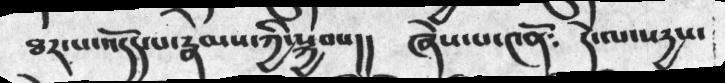ཐར་པ་འདོད་པ་རྣམས་ཀྱི་སྐྱབས།།   ཞེས་པ་༤ནོ༴  དེ་ལ་སདྱས་
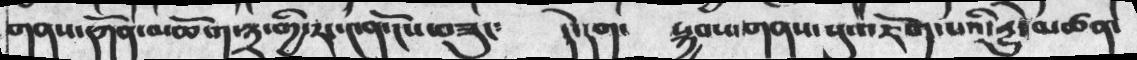གནས་དཀོན་མཆོག་༣་གྱི་རང་༤ན་ངོས་བཟུང༴  དེ་དག་   སྐྱབས་གནས་སུ་འཇོག་པའི་རྱུ་མཚན་
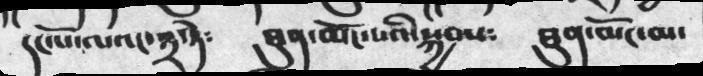དང་པོ་ལའང་༣་ཏེ༴  ཐུན་མོང་པའི་སྐྱབས༴  ཐུན་མོང་མ་
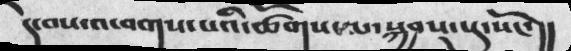དེ་བས་འཕགས་པའི་ཚོགས་ལ་སྐྱབས་སུ་སོང་།།
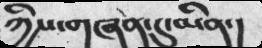ཀྱིས་གཞན་དུ་མིན་།
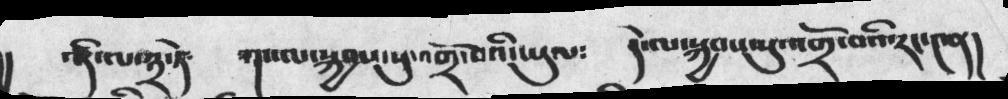།    འདི་ལ་༣་ཏེ༴  གང་ལ་སྐྱབས་སུ་འགྲོ་བའི་ཡུལ༴  དེ་ལ་སྐྱབས་སུ་འགྲོ་བའི་རང་༤ན།
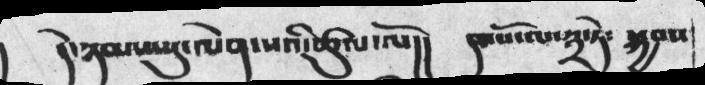།   དེ་ཉམས་སུ་ལེན་པའི་ཚུལ་ལོ།།  དང་པོ་ལ་༣་ཏེ༴  སྐྱབས
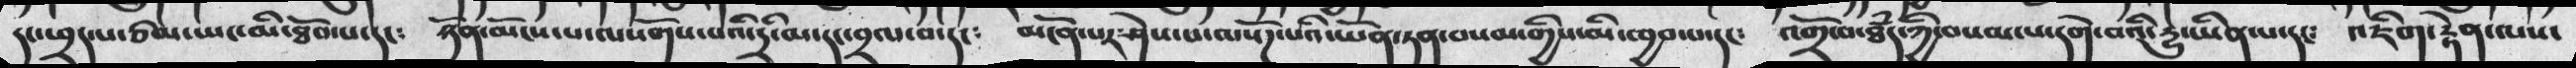དང་ཕྲད་པ་ཙམ་ཡང་མི་ཐོབ་པ་དང་  ཉོན་མོངས་པ་ལ་སོགས་པའི་དྲི་མ་དང་བྲལ་བ་དང༴  མངོན་པར་ཤེས་པ་ལ་སོཌ་པའི་ཡོན་ཏན་བསམ་གྱིས་མི་ཁྱབ་པ་དང༴  འགྲོ་བ་ཐཾད་ཀྱི་བསམ་པ་དགེ་བའི་རྱུ་ཡིན་པ་དང༴  འཇིག་རྟེན་ལས་
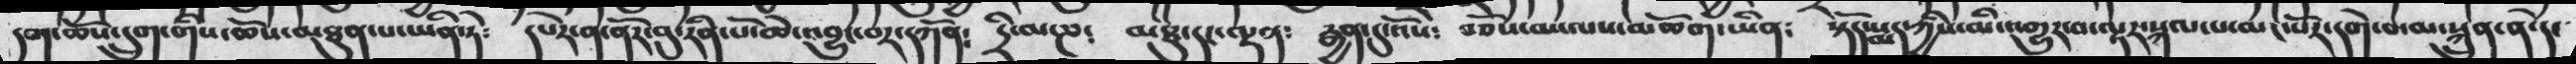དག་ཆོས་དྲུག་གིས་ཆོས་མཐུན་པ་ཡིན་ཏེ༴  དཔེར་ན་ནོར་བུ་རིན་པོ་ཆེ་འབྱུང་བར་དཀོན༴  དྲི་མ་ཎ༴  མཐུ་དང་ལྡན༴  རྒྱན་དུ་འོས༴  བཅོས་མ་ལས་མཆོག་ཡིན༴  སྟོད་སྨད་ཀྱིས་མི་གྱུར་བ་ལྟར་སྐལ་པ་མང་པོར་དགེ་བ་མ་སྐྲུན་ན་དེ་
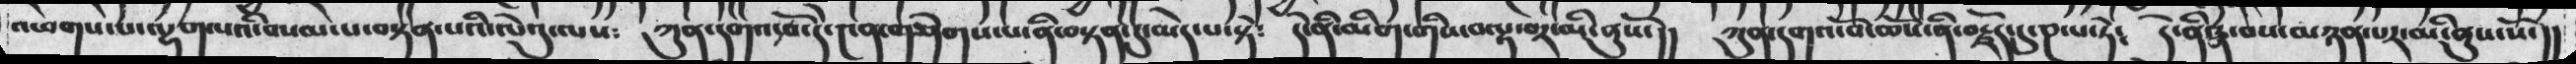འཕགས་པ་ལྷག་པའི་བསམ་པ་བསྟན་པའི་ལེའུ་ལས༴  ཀུན་དགའ་བོ་དེ་༤ན་གཤེགས་པ་ནི་བསྟན་དུ་མེད་པ་སྟེ༴  ཀུན་དགའ་བོ་ཆོས་ནི་བརྗོད་དུ་ཎ་པ་ཏེ༴  དེ་ནི་ཐཾད་བས་ཉན་པར་མི་ནུས་སོ་།།
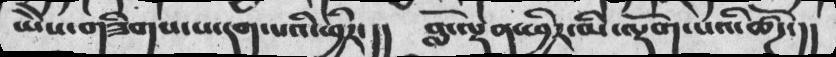ཡེེས་གཟིགས་པ་དག་པའི་ཕྱིར་།།  བློ་ལྡན་ཕྱིར་མི་ལྡོག་པའི་ཚོཌ་།།
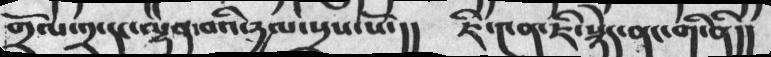གྲོལ་༢་དང་ལྡན་བའི་དྱལ་སྲས་སོ་།།  ཇི་༤ན་ཇི་སྙེད་ནང་གི་ནི།།
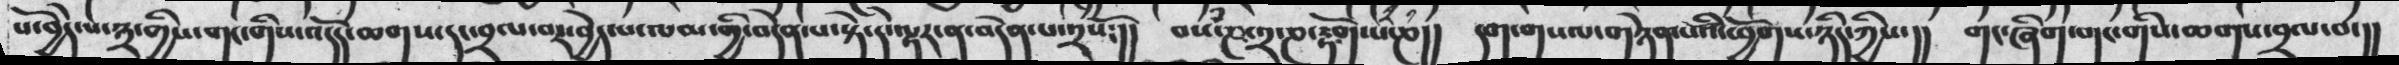པ་བྱེད་པ་༣་གྱིས་གང་གིས་འདོད་ཆགས་དང་བྲལ་བར་བྱེད་པ་ལམ་གྱི་བདེན་པ་སྟེ་དེ་ལྟར་ན་བདེན་པ་༢་པོ་།།  བསཾཎ་༢་ཎ་རྟོག་པ་ཎ།།  དག་གསལ་གཉེན་པའི་ཕྱོགས་ཉིད་ཀྱིས་།།  གང་ཞིག་གང་གིས་ཆགས་བྲལ་བ་།།
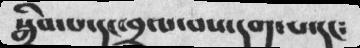སྒྲིབ་པ་དང་བྲལ་བས་དག་པ་དང༴
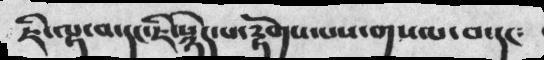ཇི་ལྟ་བ་དང་ཇི་སྙེད་པ་རྟོགས་པས་གསལ་བ་དང༴
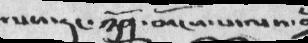ལས་དང་ཉོན་མོངས་པ་ལས་
